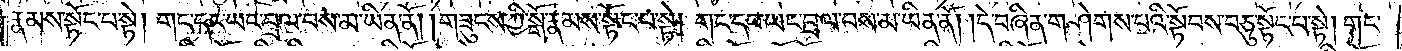རྣམས་སྟོང་པ་སྟེ། གང་དང་ཡང་བྲལ་བས་མ་ཡིན་ནོ། །གཟུངས་ཀྱི་སྒོ་རྣམས་སྟོང་པ་སྟེ། གང་དང་ཡང་བྲལ་བས་མ་ཡིན་ནོ། །དེ་བཞིན་གཤེགས་པའི་སྟོབས་བཅུ་སྟོང་པ་སྟེ། གང་
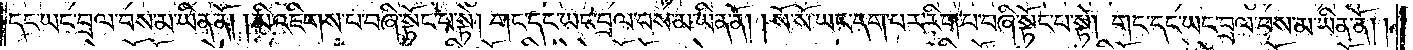དང་ཡང་བྲལ་བས་མ་ཡིན་ནོ། །མི་འཇིགས་པ་བཞི་སྟོང་པ་སྟེ། གང་དང་ཡང་བྲལ་བས་མ་ཡིན་ནོ། །སོ་སོ་ཡང་དག་པར་རིག་པ་བཞི་སྟོང་པ་སྟེ། གང་དང་ཡང་བྲལ་བས་མ་ཡིན་ནོ། །
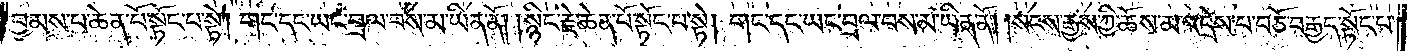བྱམས་པ་ཆེན་པོ་སྟོང་པ་སྟེ། གང་དང་ཡང་བྲལ་བས་མ་ཡིན་ནོ། །སྙིང་རྗེ་ཆེན་པོ་སྟོང་པ་སྟེ། གང་དང་ཡང་བྲལ་བས་མ་ཡིན་ནོ། །སངས་རྒྱས་ཀྱི་ཆོས་མ་འདྲེས་པ་བཅོ་བརྒྱད་སྟོང་པ་
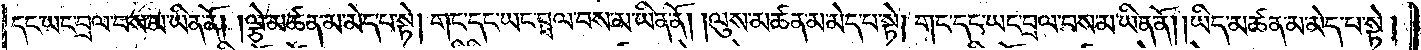དང་ཡང་བྲལ་བས་མ་ཡིན་ནོ། །ལྕེ་མཚན་མ་མེད་པ་སྟེ། གང་དང་ཡང་བྲལ་བས་མ་ཡིན་ནོ། །ལུས་མཚན་མ་མེད་པ་སྟེ། གང་དང་ཡང་བྲལ་བས་མ་ཡིན་ནོ། །ཡིད་མཚན་མ་མེད་པ་སྟེ།
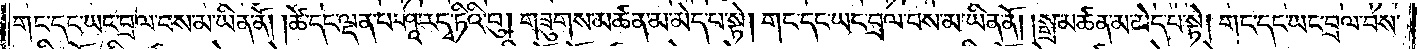གང་དང་ཡང་བྲལ་བས་མ་ཡིན་ནོ། །ཚེ་དང་ལྡན་པ་ཤཱ་ར་དྭ་ཏིའི་བུ། གཟུགས་མཚན་མ་མེད་པ་སྟེ། གང་དང་ཡང་བྲལ་བས་མ་ཡིན་ནོ། །སྒྲ་མཚན་མ་མེད་པ་སྟེ། གང་དང་ཡང་བྲལ་བས་
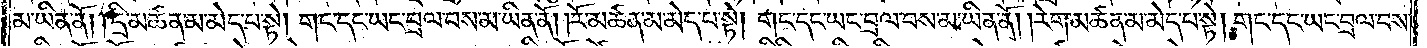མ་ཡིན་ནོ། །དྲི་མཚན་མ་མེད་པ་སྟེ། གང་དང་ཡང་བྲལ་བས་མ་ཡིན་ནོ། །རོ་མཚན་མ་མེད་པ་སྟེ། གང་དང་ཡང་བྲལ་བས་མ་ཡིན་ནོ། །རེག་མཚན་མ་མེད་པ་སྟེ། གང་དང་ཡང་བྲལ་བས་
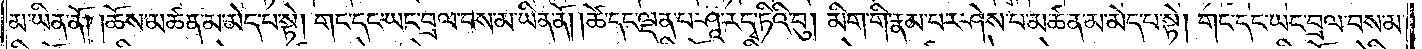མ་ཡིན་ནོ། །ཆོས་མཚན་མ་མེད་པ་སྟེ། གང་དང་ཡང་བྲལ་བས་མ་ཡིན་ནོ། །ཚེ་དང་ལྡན་པ་ཤཱ་ར་དྭ་ཏིའི་བུ། མིག་གི་རྣམ་པར་ཤེས་པ་མཚན་མ་མེད་པ་སྟེ། གང་དང་ཡང་བྲལ་བས་མ་
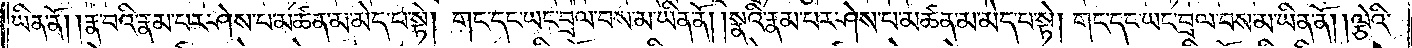ཡིན་ནོ། །རྣ་བའི་རྣམ་པར་ཤེས་པ་མཚན་མ་མེད་པ་སྟེ། གང་དང་ཡང་བྲལ་བས་མ་ཡིན་ནོ། །སྣའི་རྣམ་པར་ཤེས་པ་མཚན་མ་མེད་པ་སྟེ། གང་དང་ཡང་བྲལ་བས་མ་ཡིན་ནོ། །ལྕེའི་
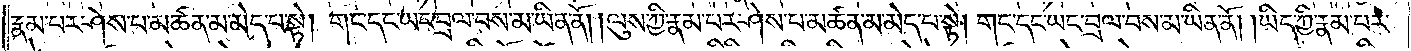རྣམ་པར་ཤེས་པ་མཚན་མ་མེད་པ་སྟེ། གང་དང་ཡང་བྲལ་བས་མ་ཡིན་ནོ། །ལུས་ཀྱི་རྣམ་པར་ཤེས་པ་མཚན་མ་མེད་པ་སྟེ། གང་དང་ཡང་བྲལ་བས་མ་ཡིན་ནོ། །ཡིད་ཀྱི་རྣམ་པར་
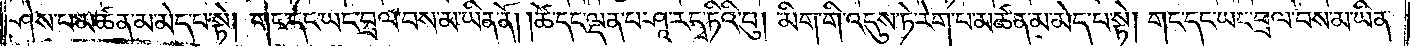ཤེས་པ་མཚན་མ་མེད་པ་སྟེ། གང་དང་ཡང་བྲལ་བས་མ་ཡིན་ནོ། །ཚེ་དང་ལྡན་པ་ཤཱ་ར་དྭ་ཏིའི་བུ། མིག་གི་འདུས་ཏེ་རེག་པ་མཚན་མ་མེད་པ་སྟེ། གང་དང་ཡང་བྲལ་བས་མ་ཡིན་
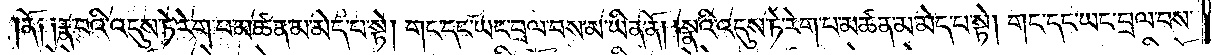ནོ༑ ༑རྣ་བའི་འདུས་ཏེ་རེག་པ་མཚན་མ་མེད་པ་སྟེ། གང་དང་ཡང་བྲལ་བས་མ་ཡིན་ནོ། །སྣའི་འདུས་ཏེ་རེག་པ་མཚན་མ་མེད་པ་སྟེ། གང་དང་ཡང་བྲལ་བས་
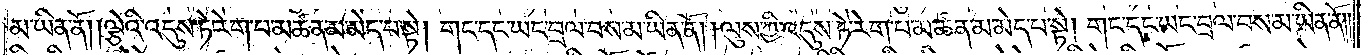མ་ཡིན་ནོ། །ལྕེའི་འདུས་ཏེ་རེག་པ་མཚན་མ་མེད་པ་སྟེ། གང་དང་ཡང་བྲལ་བས་མ་ཡིན་ནོ། །ལུས་ཀྱི་འདུས་ཏེ་རེག་པ་མཚན་མ་མེད་པ་སྟེ། གང་དང་ཡང་བྲལ་བས་མ་ཡིན་ནོ། །
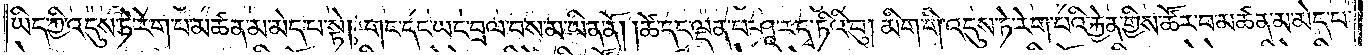ཡིད་ཀྱི་འདུས་ཏེ་རེག་པ་མཚན་མ་མེད་པ་སྟེ། གང་དང་ཡང་བྲལ་བས་མ་ཡིན་ནོ། །ཚེ་དང་ལྡན་པ་ཤཱ་ར་དྭ་ཏིའི་བུ། མིག་གི་འདུས་ཏེ་རེག་པའི་རྐྱེན་གྱིས་ཚོར་བ་མཚན་མ་མེད་པ་
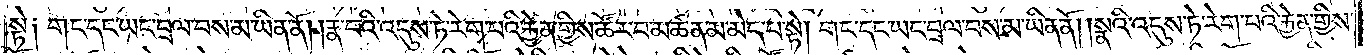སྟེ༑ གང་དང་ཡང་བྲལ་བས་མ་ཡིན་ནོ། །རྣ་བའི་འདུས་ཏེ་རེག་པའི་རྐྱེན་གྱིས་ཚོར་བ་མཚན་མ་མེད་པ་སྟེ། གང་དང་ཡང་བྲལ་བས་མ་ཡིན་ནོ། །སྣའི་འདུས་ཏེ་རེག་པའི་རྐྱེན་གྱིས་
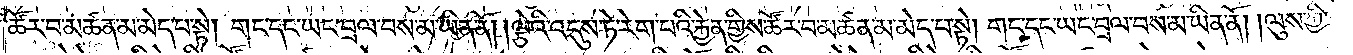ཚོར་བ་མཚན་མ་མེད་པ་སྟེ། གང་དང་ཡང་བྲལ་བས་མ་ཡིན་ནོ། །ལྕེའི་འདུས་ཏེ་རེག་པའི་རྐྱེན་གྱིས་ཚོར་བ་མཚན་མ་མེད་པ་སྟེ། གང་དང་ཡང་བྲལ་བས་མ་ཡིན་ནོ། །ལུས་ཀྱི་
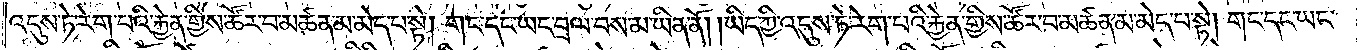འདུས་ཏེ་རེག་པའི་རྐྱེན་གྱིས་ཚོར་བ་མཚན་མ་མེད་པ་སྟེ། གང་དང་ཡང་བྲལ་བས་མ་ཡིན་ནོ། །ཡིད་ཀྱི་འདུས་ཏེ་རེག་པའི་རྐྱེན་གྱིས་ཚོར་བ་མཚན་མ་མེད་པ་སྟེ། གང་དང་ཡང་
